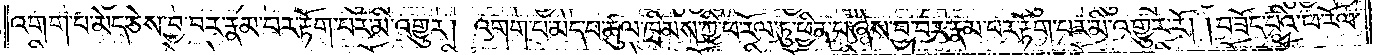འགག་པ་མེད་ཅེས་བྱ་བར་རྣམ་པར་རྟོག་པར་མི་འགྱུར། འགག་པ་མེད་པ་ཚུལ་ཁྲིམས་ཀྱི་ཕ་རོལ་ཏུ་ཕྱིན་པ་ཞེས་བྱ་བར་རྣམ་པར་རྟོག་པར་མི་འགྱུར་རོ། །བཟོད་པའི་ཕ་རོལ་
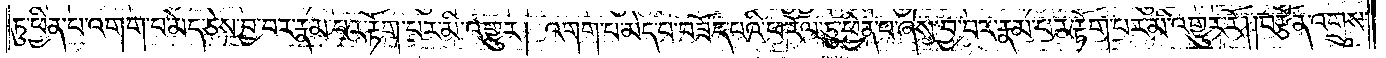ཏུ་ཕྱིན་པ་འགག་པ་མེད་ཅེས་བྱ་བར་རྣམ་པར་རྟོག་པར་མི་འགྱུར། འགག་པ་མེད་པ་བཟོད་པའི་ཕ་རོལ་ཏུ་ཕྱིན་པ་ཞེས་བྱ་བར་རྣམ་པར་རྟོག་པར་མི་འགྱུར་རོ། །བརྩོན་འགྲུས་
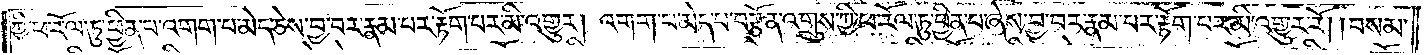ཀྱི་ཕ་རོལ་ཏུ་ཕྱིན་པ་འགག་པ་མེད་ཅེས་བྱ་བར་རྣམ་པར་རྟོག་པར་མི་འགྱུར། འགག་པ་མེད་པ་བརྩོན་འགྲུས་ཀྱི་ཕ་རོལ་ཏུ་ཕྱིན་པ་ཞེས་བྱ་བར་རྣམ་པར་རྟོག་པར་མི་འགྱུར་རོ། །བསམ་
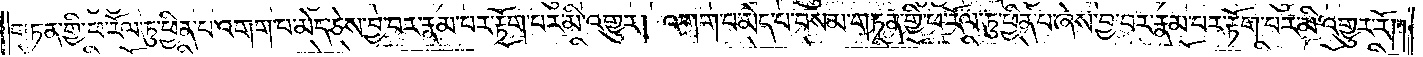གཏན་གྱི་ཕ་རོལ་ཏུ་ཕྱིན་པ་འགག་པ་མེད་ཅེས་བྱ་བར་རྣམ་པར་རྟོག་པར་མི་འགྱུར། འགག་པ་མེད་པ་བསམ་གཏན་གྱི་ཕ་རོལ་ཏུ་ཕྱིན་པ་ཞེས་བྱ་བར་རྣམ་པར་རྟོག་པར་མི་འགྱུར་རོ༎
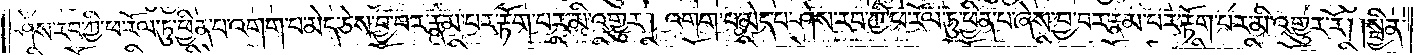ཤེས་རབ་ཀྱི་ཕ་རོལ་ཏུ་ཕྱིན་པ་འགག་པ་མེད་ཅེས་བྱ་བར་རྣམ་པར་རྟོག་པར་མི་འགྱུར། འགག་པ་མེད་པ་ཤེས་རབ་ཀྱི་ཕ་རོལ་ཏུ་ཕྱིན་པ་ཞེས་བྱ་བར་རྣམ་པར་རྟོག་པར་མི་འགྱུར་རོ། །སྦྱིན་
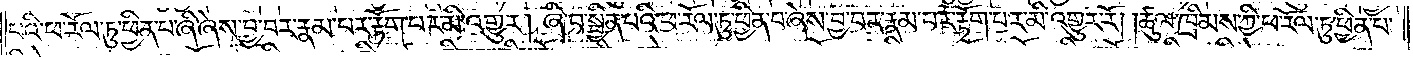པའི་ཕ་རོལ་ཏུ་ཕྱིན་པ་ཞི་ཞེས་བྱ་བར་རྣམ་པར་རྟོག་པར་མི་འགྱུར། ཞི་བ་སྦྱིན་པའི་ཕ་རོལ་ཏུ་ཕྱིན་པ་ཞེས་བྱ་བར་རྣམ་པར་རྟོག་པར་མི་འགྱུར་རོ། །ཚུལ་ཁྲིམས་ཀྱི་ཕ་རོལ་ཏུ་ཕྱིན་པ་
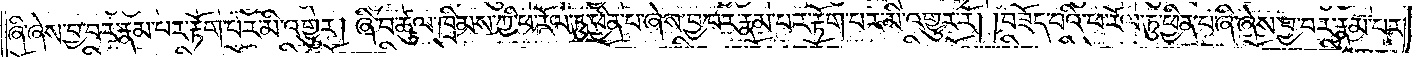ཞི་ཞེས་བྱ་བར་རྣམ་པར་རྟོག་པར་མི་འགྱུར། ཞི་བ་ཚུལ་ཁྲིམས་ཀྱི་ཕ་རོལ་ཏུ་ཕྱིན་པ་ཞེས་བྱ་བར་རྣམ་པར་རྟོག་པར་མི་འགྱུར་རོ། །བཟོད་པའི་ཕ་རོལ་ཏུ་ཕྱིན་པ་ཞི་ཞེས་བྱ་བར་རྣམ་པར་
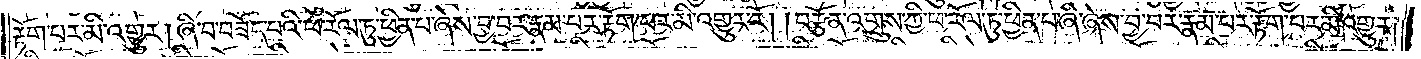རྟོག་པར་མི་འགྱུར། ཞི་བ་བཟོད་པའི་ཕ་རོལ་ཏུ་ཕྱིན་པ་ཞེས་བྱ་བར་རྣམ་པར་རྟོག་པར་མི་འགྱུར་རོ། །བརྩོན་འགྲུས་ཀྱི་ཕ་རོལ་ཏུ་ཕྱིན་པ་ཞི་ཞེས་བྱ་བར་རྣམ་པར་རྟོག་པར་མི་འགྱུར།
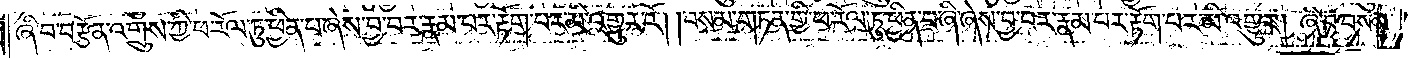ཞི་བ་བརྩོན་འགྲུས་ཀྱི་ཕ་རོལ་ཏུ་ཕྱིན་པ་ཞེས་བྱ་བར་རྣམ་པར་རྟོག་པར་མི་འགྱུར་རོ། །བསམ་གཏན་གྱི་ཕ་རོལ་ཏུ་ཕྱིན་པ་ཞི་ཞེས་བྱ་བར་རྣམ་པར་རྟོག་པར་མི་འགྱུར། ཞི་བ་བསམ་
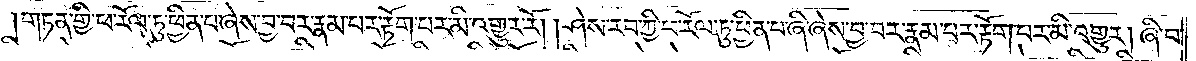གཏན་གྱི་ཕ་རོལ་ཏུ་ཕྱིན་པ་ཞེས་བྱ་བར་རྣམ་པར་རྟོག་པར་མི་འགྱུར་རོ། །ཤེས་རབ་ཀྱི་ཕ་རོལ་ཏུ་ཕྱིན་པ་ཞི་ཞེས་བྱ་བར་རྣམ་པར་རྟོག་པར་མི་འགྱུར། ཞི་བ་
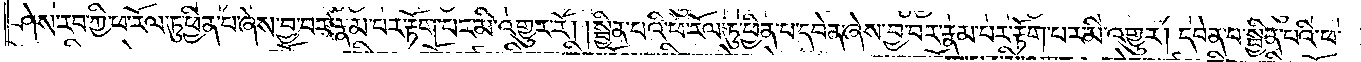ཤེས་རབ་ཀྱི་ཕ་རོལ་ཏུ་ཕྱིན་པ་ཞེས་བྱ་བར་རྣམ་པར་རྟོག་པར་མི་འགྱུར་རོ། །སྦྱིན་པའི་ཕ་རོལ་ཏུ་ཕྱིན་པ་དབེན་ཞེས་བྱ་བར་རྣམ་པར་རྟོག་པར་མི་འགྱུར། དབེན་པ་སྦྱིན་པའི་ཕ་
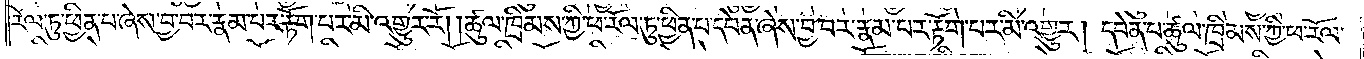རོལ་ཏུ་ཕྱིན་པ་ཞེས་བྱ་བར་རྣམ་པར་རྟོག་པར་མི་འགྱུར་རོ། །ཚུལ་ཁྲིམས་ཀྱི་ཕ་རོལ་ཏུ་ཕྱིན་པ་དབེན་ཞེས་བྱ་བར་རྣམ་པར་རྟོག་པར་མི་འགྱུར། དབེན་པ་ཚུལ་ཁྲིམས་ཀྱི་ཕ་རོལ་
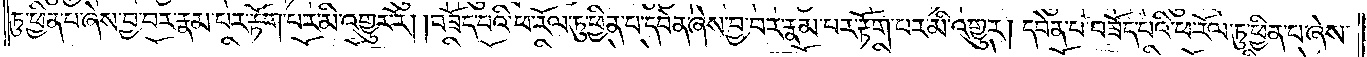ཏུ་ཕྱིན་པ་ཞེས་བྱ་བར་རྣམ་པར་རྟོག་པར་མི་འགྱུར་རོ། །བཟོད་པའི་ཕ་རོལ་ཏུ་ཕྱིན་པ་དབེན་ཞེས་བྱ་བར་རྣམ་པར་རྟོག་པར་མི་འགྱུར། དབེན་པ་བཟོད་པའི་ཕ་རོལ་ཏུ་ཕྱིན་པ་ཞེས་
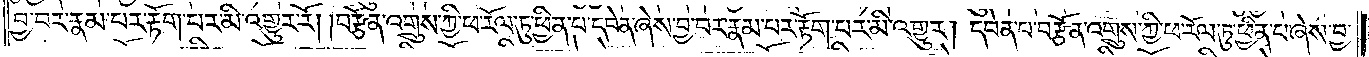བྱ་བར་རྣམ་པར་རྟོག་པར་མི་འགྱུར་རོ། །བརྩོན་འགྲུས་ཀྱི་ཕ་རོལ་ཏུ་ཕྱིན་པ་དབེན་ཞེས་བྱ་བར་རྣམ་པར་རྟོག་པར་མི་འགྱུར། དབེན་པ་བརྩོན་འགྲུས་ཀྱི་ཕ་རོལ་ཏུ་ཕྱིན་པ་ཞེས་བྱ་
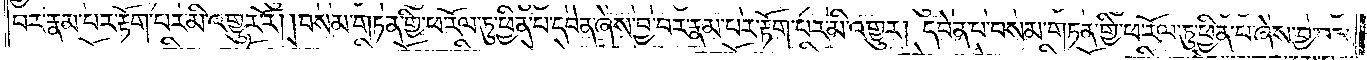བར་རྣམ་པར་རྟོག་པར་མི་འགྱུར་རོ། །བསམ་གཏན་གྱི་ཕ་རོལ་ཏུ་ཕྱིན་པ་དབེན་ཞེས་བྱ་བར་རྣམ་པར་རྟོག་པར་མི་འགྱུར། དབེན་པ་བསམ་གཏན་གྱི་ཕ་རོལ་ཏུ་ཕྱིན་པ་ཞེས་བྱ་བར་
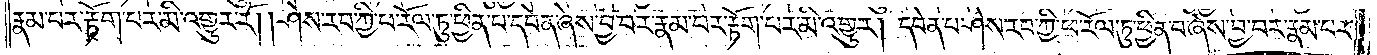རྣམ་པར་རྟོག་པར་མི་འགྱུར་རོ། །ཤེས་རབ་ཀྱི་ཕ་རོལ་ཏུ་ཕྱིན་པ་དབེན་ཞེས་བྱ་བར་རྣམ་པར་རྟོག་པར་མི་འགྱུར། དབེན་པ་ཤེས་རབ་ཀྱི་ཕ་རོལ་ཏུ་ཕྱིན་པ་ཞེས་བྱ་བར་རྣམ་པར་
